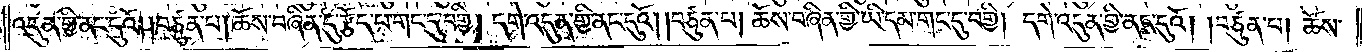འདུན་གྱི་ནང་དུའོ། །བཙུན་པ། ཆོས་བཞིན་དུ་རྩོད་པ་གང་དུ་བགྱི། དགེ་འདུན་གྱི་ནང་དུའོ། །བཙུན་པ། ཆོས་བཞིན་གྱི་ཡི་དམ་གང་དུ་བགྱི། དགེ་འདུན་གྱི་ནང་དུའོ། །བཙུན་པ། ཆོས་
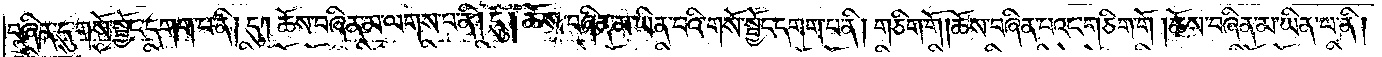བཞིན་དུ་གསོ་སྦྱོང་དགག་པ་ནི། དུ། ཆོས་བཞིན་མ་ལགས་པ་ནི། དུ། ཆོས་བཞིན་མ་ཡིན་པའི་གསོ་སྦྱོང་དགག་པ་ནི། གཅིག་གོ། ཆོས་བཞིན་པའང་གཅིག་གོ །ཆོས་བཞིན་མ་ཡིན་པ་ནི།
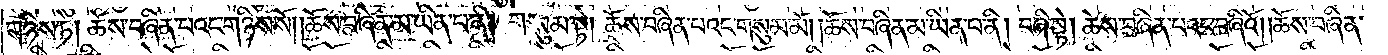གཉིས་ཏེ། ཆོས་བཞིན་པའང་གཉིས་སོ། །ཆོས་བཞིན་མ་ཡིན་པ་ནི། གསུམ་སྟེ། ཆོས་བཞིན་པའང་གསུམ་མོ། །ཆོས་བཞིན་མ་ཡིན་པ་ནི། བཞི་སྟེ། ཆོས་བཞིན་པའང་བཞིའོ། །ཆོས་བཞིན་
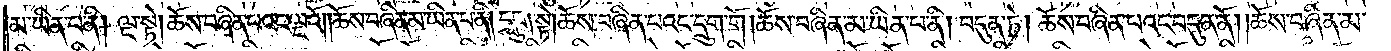མ་ཡིན་པ་ནི། ལྔ་སྟེ། ཆོས་བཞིན་པའང་ལྔའོ། །ཆོས་བཞིན་མ་ཡིན་པ་ནི། དྲུག་སྟེ། ཆོས་བཞིན་པའང་དྲུག་གོ །ཆོས་བཞིན་མ་ཡིན་པ་ནི། བདུན་ཏེ། ཆོས་བཞིན་པའང་བདུན་ནོ། །ཆོས་བཞིན་མ་
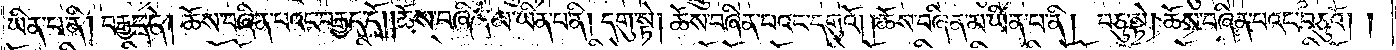ཡིན་པ་ནི། བརྒྱད་དེ། ཆོས་བཞིན་པའང་བརྒྱད་དོ། །ཆོས་བཞིན་མ་ཡིན་པ་ནི། དགུ་སྟེ། ཆོས་བཞིན་པའང་དགུའོ། །ཆོས་བཞིན་མ་ཡིན་པ་ནི། བཅུ་སྟེ། ཆོས་བཞིན་པའང་བཅུའོ། །
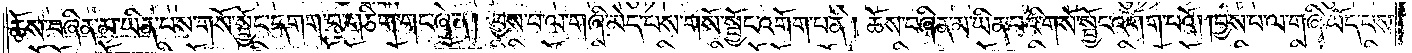ཆོས་བཞིན་མ་ཡིན་པས་གསོ་སྦྱོང་དགག་པ་གཅིག་གང་ཞེ་ན། བྱས་པ་ལ་གཞི་མེད་པས་གསོ་སྦྱོང་འགོག་པ་ནི། ཆོས་བཞིན་མ་ཡིན་པའི་གསོ་སྦྱོང་འགོག་པའོ། །བྱས་པ་ལ་གཞི་ཡོད་པས་
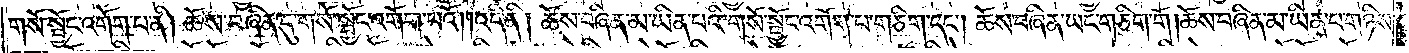གསོ་སྦྱོང་འགོག་པ་ནི། ཆོས་བཞིན་དུ་གསོ་སྦྱོང་འགོག་པའོ། །འདི་ནི། ཆོས་བཞིན་མ་ཡིན་པའི་གསོ་སྦྱོང་འགོག་པ་གཅིག་དང༌། ཆོས་བཞིན་ཡང་གཅིག་གོ །ཆོས་བཞིན་མ་ཡིན་པ་གཉིས་
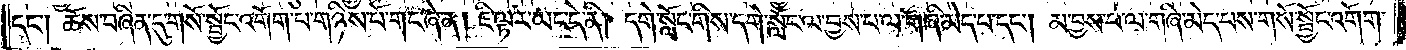དང༌། ཆོས་བཞིན་དུ་གསོ་སྦྱོང་འགོག་པ་གཉིས་པོ་གང་ཞེ་ན། ཇི་ལྟར་ཡང་དེ་ནི། དགེ་སློང་གིས་དགེ་སློང་ལ་བྱས་པ་ལ་གཞི་མེད་པ་དང༌། མ་བྱས་པ་ལ་གཞི་མེད་པས་གསོ་སྦྱོང་འགོག་
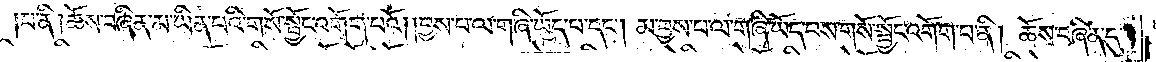པ་ནི། ཆོས་བཞིན་མ་ཡིན་པའི་གསོ་སྦྱོང་འགོག་པའོ། །བྱས་པ་ལ་གཞི་ཡོད་པ་དང༌། མ་བྱས་པ་ལ་གཞི་ཡོད་པས་གསོ་སྦྱོང་འགོག་པ་ནི། ཆོས་བཞིན་དུ་
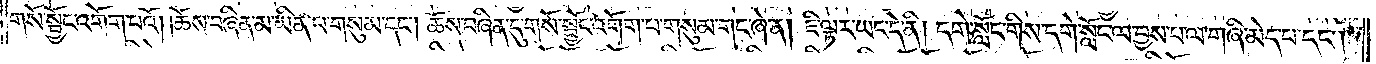གསོ་སྦྱོང་འགོག་པའོ། །ཆོས་བཞིན་མ་ཡིན་པ་གསུམ་དང༌། ཆོས་བཞིན་དུ་གསོ་སྦྱོང་འགོག་པ་གསུམ་གང་ཞེ་ན། ཇི་ལྟར་ཡང་དེ་ནི། དགེ་སློང་གིས་དགེ་སློང་ལ་བྱས་པ་ལ་གཞི་མེད་པ་དང༌།
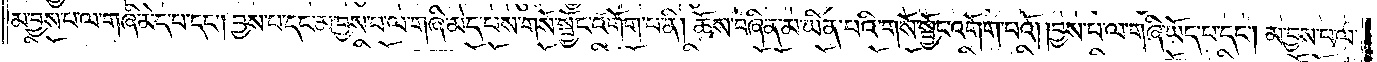མ་བྱས་པ་ལ་གཞི་མེད་པ་དང༌། བྱས་པ་དང་མ་བྱས་པ་ལ་གཞི་མེད་པས་གསོ་སྦྱོང་འགོག་པ་ནི། ཆོས་བཞིན་མ་ཡིན་པའི་གསོ་སྦྱོང་འགོག་པའོ། །བྱས་པ་ལ་གཞི་ཡོད་པ་དང༌། མ་བྱས་པ་ལ་
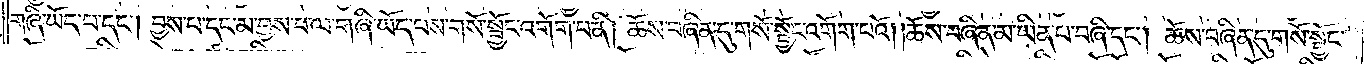གཞི་ཡོད་པ་དང༌། བྱས་པ་དང་མ་བྱས་པ་ལ་གཞི་ཡོད་པས་གསོ་སྦྱོང་འགོག་པ་ནི། ཆོས་བཞིན་དུ་གསོ་སྦྱོང་འགོག་པའོ། །ཆོས་བཞིན་མ་ཡིན་པ་བཞི་དང༌། ཆོས་བཞིན་དུ་གསོ་སྦྱོང་
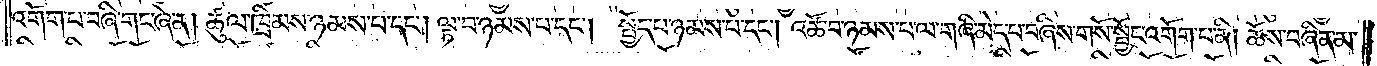འགོག་པ་བཞི་གང་ཞེ་ན། ཚུལ་ཁྲིམས་ཉམས་པ་དང༌། ལྟ་བ་ཉམས་པ་དང༌། སྤྱོད་པ་ཉམས་པ་དང༌། འཚོ་བ་ཉམས་པ་ལ་གཞི་མེད་པ་བཞིས་གསོ་སྦྱོང་འགོག་པ་ནི། ཆོས་བཞིན་མ་
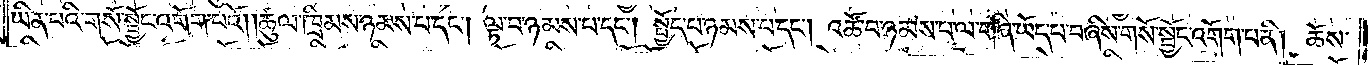ཡིན་པའི་གསོ་སྦྱོང་འགོག་པའོ། །ཚུལ་ཁྲིམས་ཉམས་པ་དང༌། ལྟ་བ་ཉམས་པ་དང༌། སྤྱོད་པ་ཉམས་པ་དང༌། འཚོ་བ་ཉམས་པ་ལ་གཞི་ཡོད་པ་བཞིས་གསོ་སྦྱོང་འགོག་པ་ནི། ཆོས་
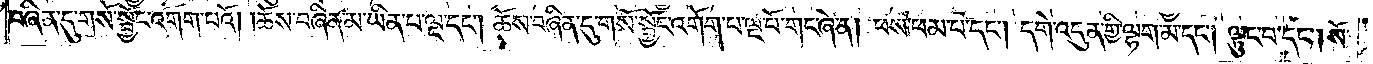བཞིན་དུ་གསོ་སྦྱོང་འགོག་པའོ། །ཆོས་བཞིན་མ་ཡིན་པ་ལྔ་དང༌། ཆོས་བཞིན་དུ་གསོ་སྦྱོང་འགོག་པ་ལྔ་པོ་གང་ཞེ་ན། ཕས་ཕམ་པ་དང༌། དགེ་འདུན་གྱི་ལྷག་མ་དང༌། ལྟུང་བ་དང༌། སོ་
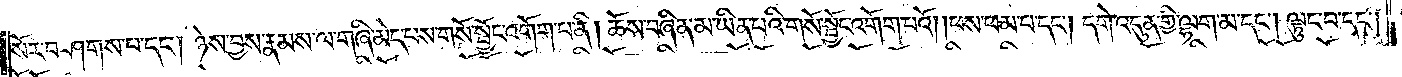སོར་བཤགས་པ་དང༌། ཉེས་བྱས་རྣམས་ལ་གཞི་མེད་པས་གསོ་སྦྱོང་འགོག་པ་ནི། ཆོས་བཞིན་མ་ཡིན་པའི་གསོ་སྦྱོང་འགོག་པའོ། །ཕས་ཕམ་པ་དང༌། དགེ་འདུན་གྱི་ལྷག་མ་དང༌། ལྟུང་བ་དང༌།
